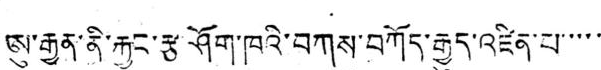ཨུ་རྒྱན་ནི་རྐྱང་རྩ་ཤོག་ཁའི་བཀས་བཀོད་རྒྱུད་འཛིན་པ་་་་་
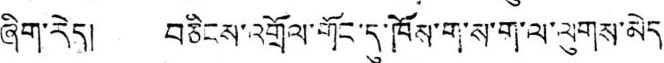ཞིག་རེད། བཅིངས་འགྲོལ་གོང་དུ་ཁོས་ག་ས་ག་ལ་ལུགས་མེད་
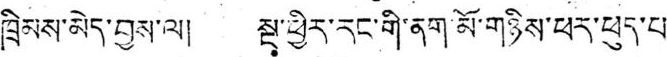ཁྲིམས་མེད་བྱས་ལ། སྔ་ཕྱིར་རང་གི་ནག་མོ་གཉིས་ཕར་ཕུད་པ་
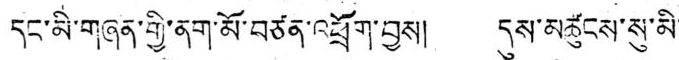དང་མི་གཞན་གྱི་ནག་མོ་བཙན་འཕྲོག་བྱས། དུས་མཚུངས་སུ་མི་
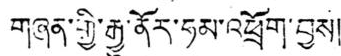གཞན་གྱི་རྒྱུ་ནོར་ཧམ་འཕྲོག་བྱས།
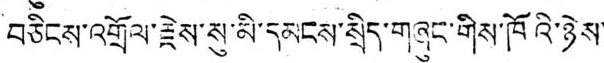བཅིངས་འགྲོལ་རྗེས་སུ་མི་དམངས་སྲིད་གཞུང་གིས་ཁོའི་ཉེས་
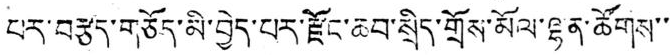པར་བརྩད་གཅོད་མི་བྱེད་པར་རྫོང་ཆབ་སྲིད་གྲོས་མོལ་ལྷན་ཚོགས་་་
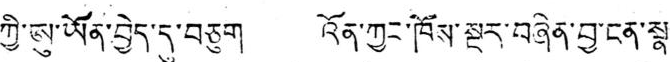ཀྱི་ཨུ་ཡོན་བྱེད་དུ་བཅུག འོན་ཀྱང་ཁོས་སྔར་བཞིན་བྱ་ངན་སྣ་
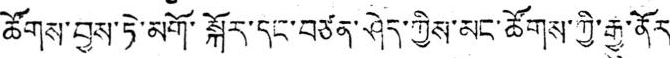ཚོགས་བྱས་ཏེ་མགོ་སྐོར་དང་བཙན་ཤེད་ཀྱིས་མང་ཚོགས་ཀྱི་རྒྱུ་ནོར་
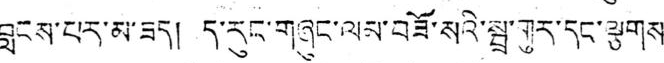བླངས་པར་མ་ཟད། ད་རུང་གཞུང་ལམ་བཟོ་སའི་སྦྲ་གུར་དང་ལྕགས་
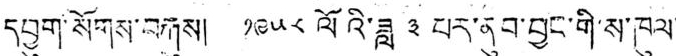དབྱུག་སོགས་བརྐུས། ༡༩༥༨ ལོའི་ཟླ ༣ པར་ནུབ་བྱང་གི་ས་ཁུལ་
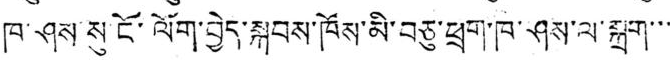ཁ་ཤས་སུ་ངོ་ལོག་བྱེད་སྐབས་ཁོས་མི་བཅུ་ཕྲག་ཁ་ཤས་ལ་སྐྲག་་་་
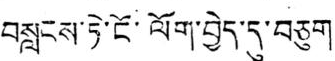བསླངས་ཏེ་ངོ་ལོག་བྱེད་དུ་བཅུག
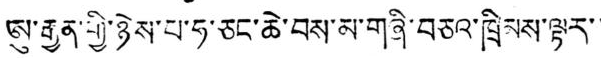ཨུ་རྒྱན་གྱི་ཉེས་པ་ཧ་ཅང་ཆེ་བས་མ་གཞི་བཅའ་ཁྲིམས་ལྟར་་
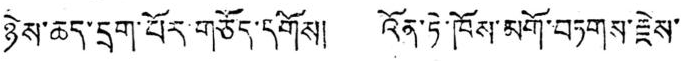ཉེས་ཆད་དྲག་པོར་གཅོད་དགོས། འོན་ཏེ་ཁོས་མགོ་བཏགས་རྗེས་
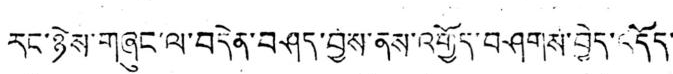རང་ཉེས་གཞུང་ལ་བདེན་བཤད་བྱས་ནས་འགྱོད་བཤགས་བྱེད་འདོད་
